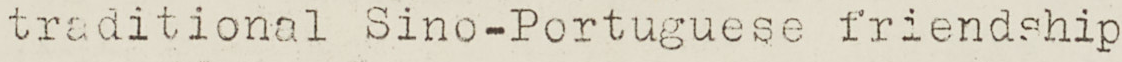traditional Sino-Portuguese friendship
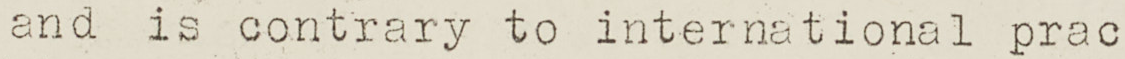and is contrary to international prac
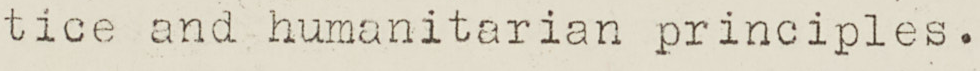tice and humanitarian principles.
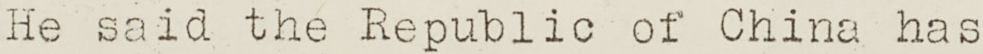He said the Republic of China has
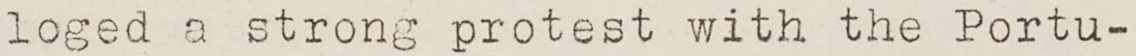loged a strong protest with the Portu-
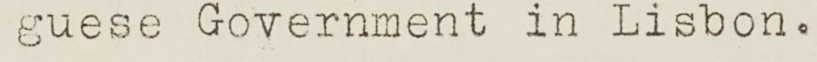guese Government in Lisbon.
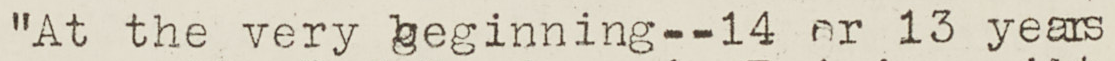"At the very beginning-- 14 or 13 years
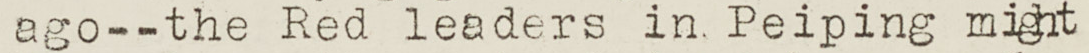ago--the Red leaders in Peiping might
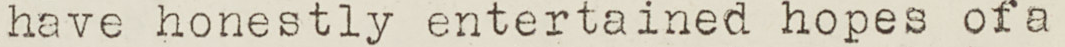have honestly entertained hopes of a
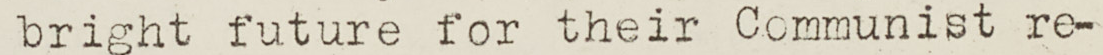bright future for their Communist re-
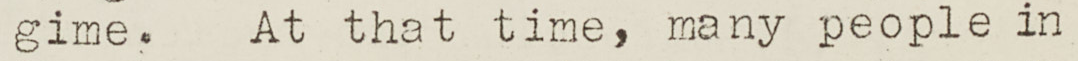gime. At that time, many people in
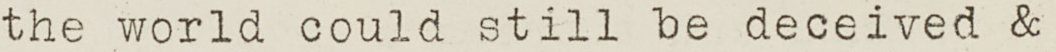the world could still be deceived &
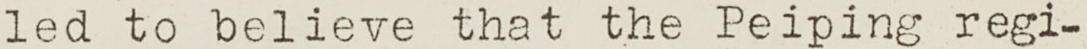led to believe that the Peiping regi-
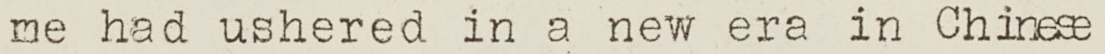me had ushered in a new era in Chinese
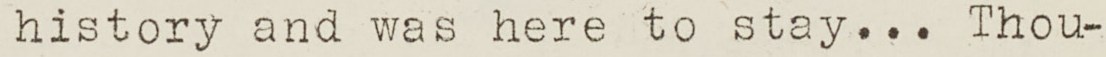history and was here to stay... Thou-
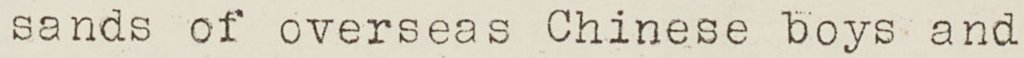sands of overseas Chinese boys and
